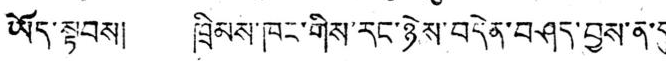ཡོད་སྟབས། ཁྲིམས་ཁང་གིས་རང་ཉེས་བདེན་བཤད་བྱས་ན་གུ་
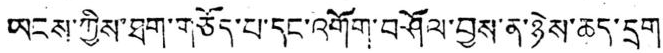ཡངས་ཀྱིས་ཐག་གཅོད་པ་དང་འགོག་བཤོལ་བྱས་ན་ཉེས་ཆད་དྲག་་
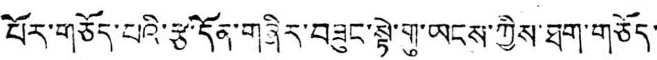པོར་གཅོད་པའི་རྩ་དོན་གཞིར་བཟུང་སྟེ་གུ་ཡངས་ཀྱིས་ཐག་གཅོད་་
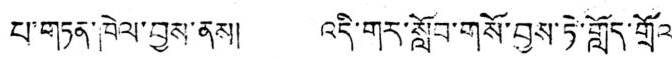པ་གཏན་ཁེལ་བྱས་ནས། འདི་གར་སློབ་གསོ་བྱས་ཏེ་གློད་གྲོལ་
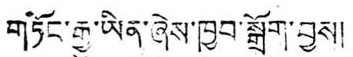གཏོང་རྒྱུ་ཡིན་ཞེས་ཁྱབ་སྒྲོག་བྱས།
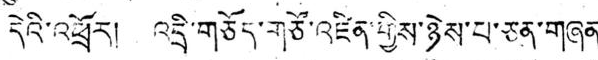དེའི་འཕྲོར། འདྲི་གཅོད་གཙོ་འཛིན་གྱིས་ཉེས་པ་ཅན་གཞན་
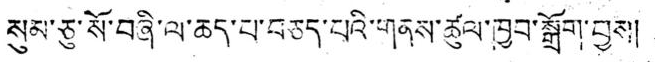སུམ་ཅུ་སོ་བཞི་ལ་ཆད་པ་བཅད་པའི་གནས་ཚུལ་ཁྱབ་སྒྲོག་བྱས།
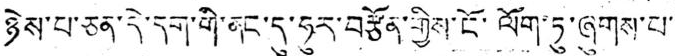ཉེས་པ་ཅན་དེ་དག་གི་ནང་དུ་ཧུར་བརྩོན་གྱིས་ངོ་ལོག་ཏུ་ཞུགས་པ་་
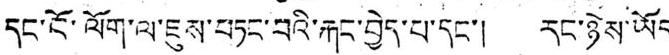དང་ངོ་ལོག་ལ་ཇུས་བཏང་བའི་རྐང་བྱེད་པ་དང་། རང་ཉེས་ཡོད་
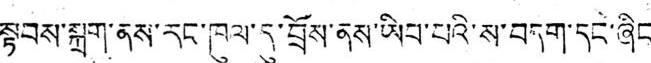སྟབས་སྐྲག་ནས་རང་ཁུལ་དུ་བྲོས་ནས་ཡིབ་པའི་ས་བདག་དང་ཞིང་་
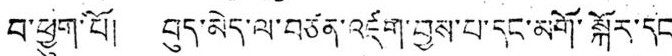བ་ཕྱུག་པོ། བུད་མེད་ལ་བཙན་འཛག་བྱས་པ་དང་མགོ་སྐོར་དང་
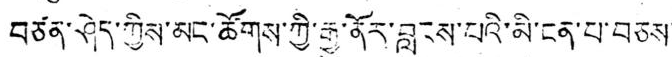བཙན་ཤེད་ཀྱིས་མང་ཚོགས་ཀྱི་རྒྱུ་ནོར་བླངས་པའི་མི་ངན་པ་བཅས་་
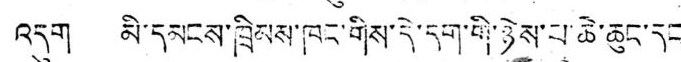འདུག མི་དམངས་ཁྲིམས་ཁང་གིས་དེ་དག་གི་ཉེས་པ་ཆེ་ཆུང་དང་
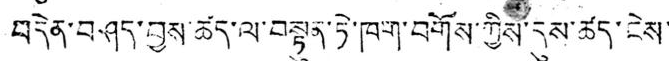བདེན་བཤད་བྱས་ཚད་ལ་བསྟུན་ཏེ་ཁག་བགོས་ཀྱིས་དུས་ཚད་ངེས་་
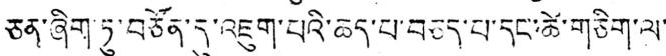ཅན་ཞིག་ཏུ་བཙོན་དུ་འཇུག་པའི་ཆད་པ་བཅད་པ་དང་ཚེ་གཅིག་ལ་་
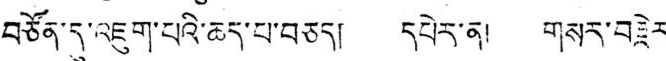བཙོན་དུ་འཇུག་པའི་ཆད་པ་བཅད། དཔེར་ན། གསར་བརྗེར་
